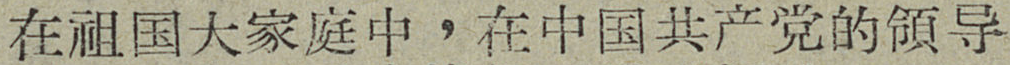在祖国大家庭中，在中国共产党的領导
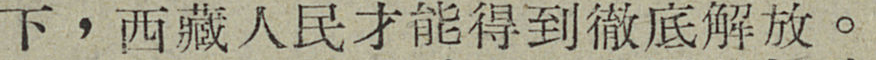下，西藏人民才能得到徹底解放。
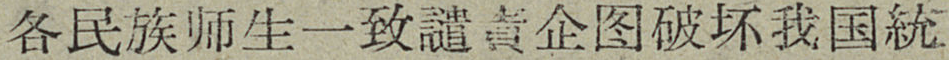各民族师生一致譴責企图破坏我国統
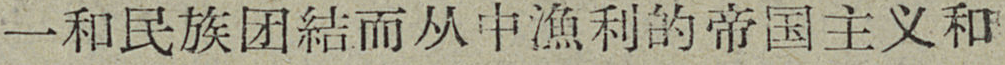一和民族团結而从中漁利的帝国主义和
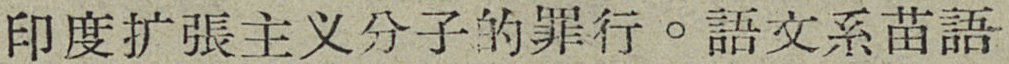印度扩張主义分子的罪行。語文系苗語
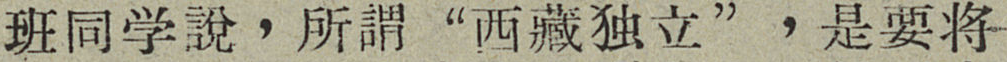班同学說，所謂“西藏独立”，是要将
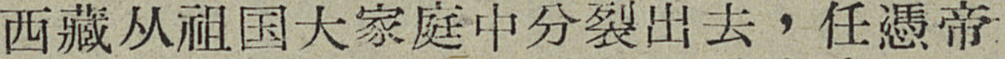西藏从祖国大家庭中分裂出去，任憑帝
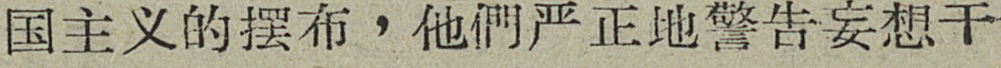国主义的摆布，他們严正地警告妄想干
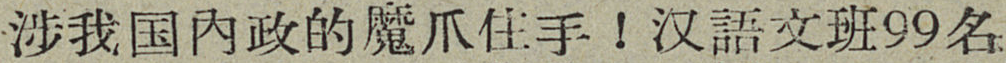涉我国内政的魔爪住手！汉語文班99名
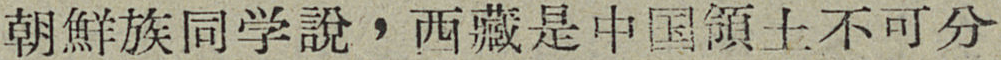朝鮮族同学說，西藏是中国領土不可分
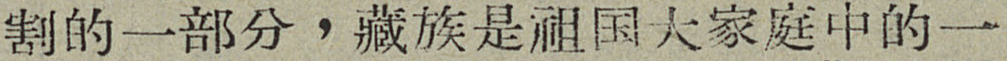割的一部分，藏族是祖国大家庭中的一
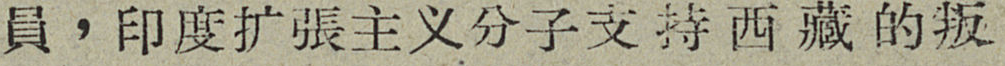員，印度扩張主义分子支持西藏的叛
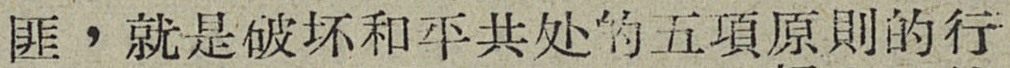匪，就是破坏和平共处的五項原則的行
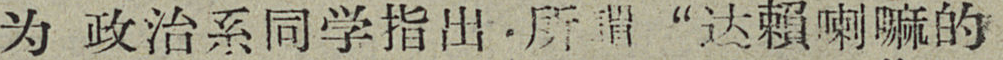为 政治系同学指出，所謂“达賴喇嘛的
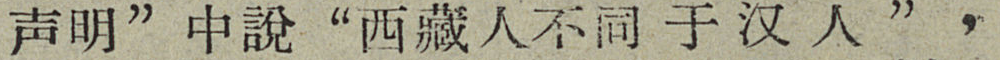声明”中說“西藏人不同于汉人”，
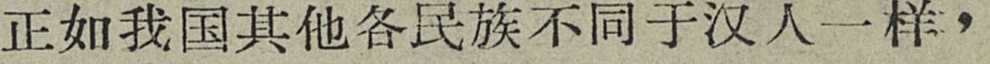正如我国其他各民族不同于汉人一样，
